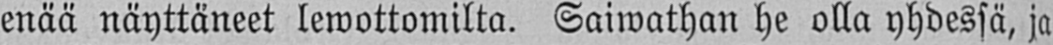enää näyttäneet lewottomilta. Saiwathan he olla yhdessä, ja
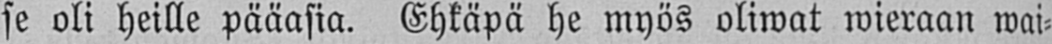se oli heille pääasia. Ehkäpä he myös oliwat wieraan wai-
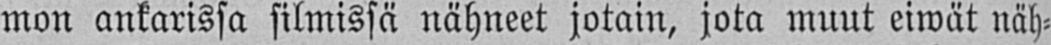mon ankarissa silmissä nähneet jotain, jota muut eiwät näh-
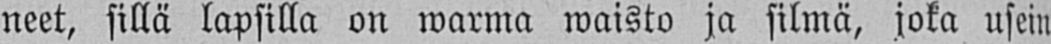neet, sillä lapsilla on warma waisto ja silmä, joka usein
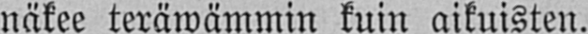näkee teräwämmin kuin aikuisten.
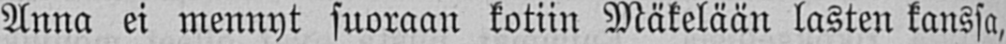Anna ei mennyt suoraan kotiin Mäkelään lasten kanssa,
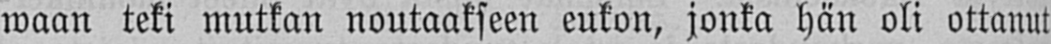waan teki mutkan noutaakseen eukon, jonka hän oli ottanut
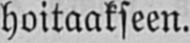hoitaakseen.
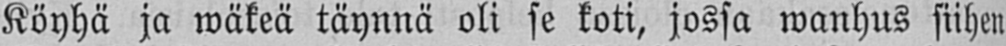Köyhä ja wäkeä täynnä oli se koti, jossa wanhus siihen
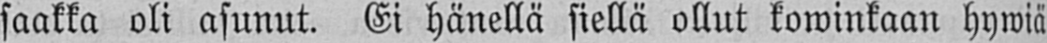saakka oli asunut. Ei hänellä siellä ollut kowinkaan hywiä
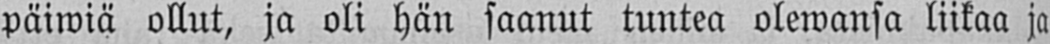päiwiä ollut, ja oli hän saanut tuntea olewansa liikaa ja
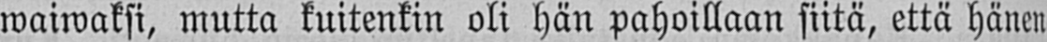waiwaksi, mutta kuitenkin oli hän pahoillaan siitä, että hänen
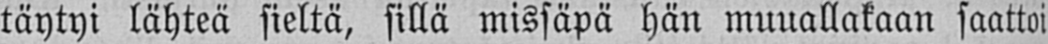täytyi lähteä sieltä, sillä missäpä hän muuallakaan saattoi
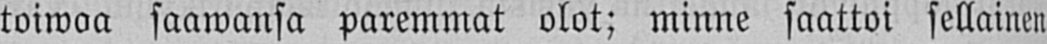toiwoa saawansa paremmat olot; minne saattoi sellainen
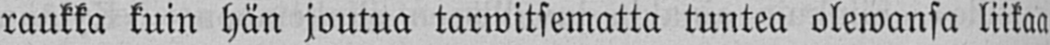raukka kuin hän joutua tarwitsematta tuntea olewansa liikaa
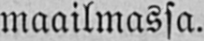maailmassa.
